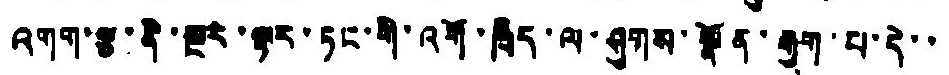འགག་རྩ་ནི་སྔར་ལྟར་ཏང་གི་འགོ་ཁྲིད་ལ་ཞུགས་སྟོན་རྒྱག་པ་དེ་་
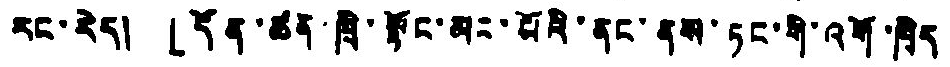རང་རེད། 「དོན་ཚན་ཁྲི་རྟོང་མང་པོའི་ནང་ནས་ཏང་གི་འགོ་ཁྲིད
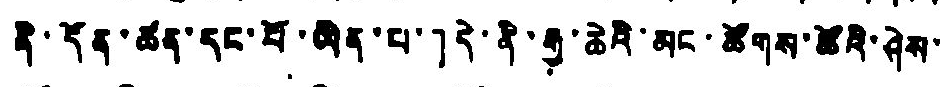ནི་དོན་ཚན་དང་པོ་ཡིན་པ་」དེ་ནི་རྒྱ་ཆེའི་མང་ཚོགས་ཚོའི་ཤེས་
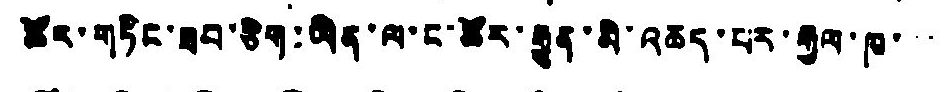ཚོར་གཏིང་ཟབ་ཅིག་ཡིན་ལ་ང་ཚོར་རྒྱུན་མི་འཆད་པར་རྒྱལ་ཁ་་་
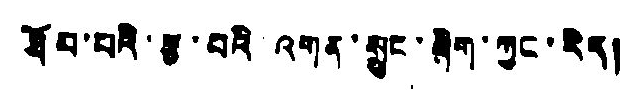ཐོབ་པའི་རྩ་བའི འགན་སྲུང་ཞིག་ཀྱང་རེད།
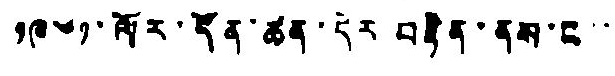༡༩༦༡་ལོར་དོན་ཚན་དེར་བརྟེན་ནས་ང་་
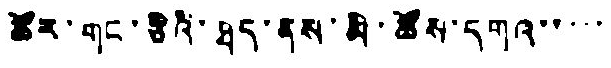ཚོར་གང་ཅིའི་ཐད་ནས་མི་ཚོས་དགའ་་་་་
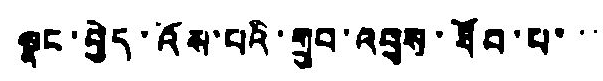སྣང་བྱེད་འོས་པའི་གྲུབ་འབྲས་ཐོབ་པ་་
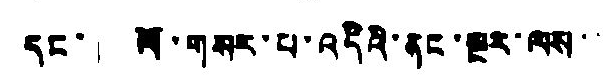དང་། ལོ་གསར་པ་འདིའི་ནང་སྔར་ལས་་་
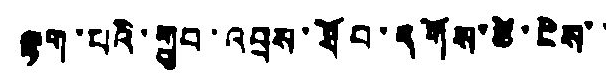ལྷག་པའི་གྲུབ་འབྲས་ཐོབ་དགོས་ཚོ་ངེས་་
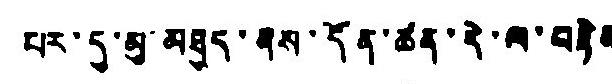པར་དུ་མུ་མཐུད་ནས་དོན་ཚན་དེ་ལ་བརྟེན
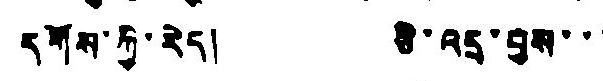དགོས་ཀྱི་རེད། ཅི་འདྲ་བྱས་་་
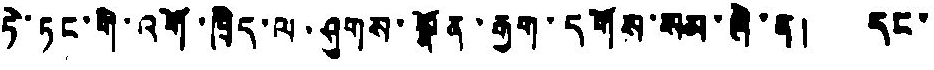ཏེ་ཏང་གི་འགོ་ཁྲིད་ལ་ཤུགས་སྣོན་རྒྱག་དགོས་སམ་ཞི་ན། དང
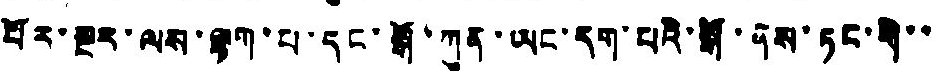པོར་སྔར་ལས་ལྷག་པ་དང་སྒོ་ཀུན་ཡང་དག་པའི་སྒོ་ནས་ཏང་གི་་
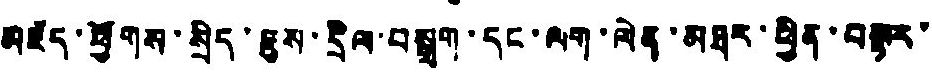མཛད་ཕྱོགས་སྲིད་ཇུས་དྲིལ་བསྒྲག་དང་ལག་ལེན་མཐར་ཕྱིན་བལྟར་
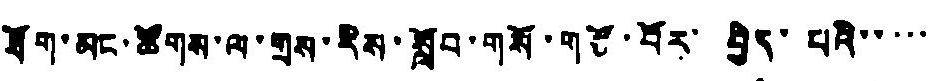ཐོག་མང་ཚོགས་ལ་གྲས་རིས་སློབ་གསོ་གཙོ་བོར་ བྱེད་པའི་་་་་
